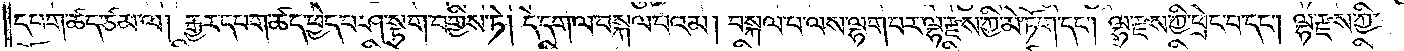དཔག་ཚད་ཙམ་ལ། རྒྱར་དཔག་ཚད་ཕྱེད་པ་ཤ་སྟག་བགྱིས་ཏེ། དེ་དག་ལ་བསྐལ་པའམ། བསྐལ་པ་ལས་ལྷག་པར་ལྷ་རྫས་ཀྱི་མེ་ཏོག་དང༌། ལྷ་རྫས་ཀྱི་འཕྲེང་བ་དང༌། ལྷ་རྫས་ཀྱི་
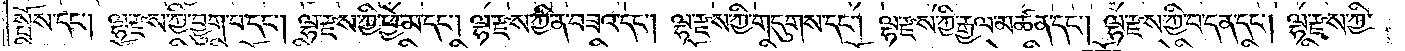སྤོས་དང༌། ལྷ་རྫས་ཀྱི་བྱུག་པ་དང༌། ལྷ་རྫས་ཀྱི་ཕྱེ་མ་དང༌། ལྷ་རྫས་ཀྱི་ན་བཟའ་དང༌། ལྷ་རྫས་ཀྱི་གདུགས་དང༌། ལྷ་རྫས་ཀྱི་རྒྱལ་མཚན་དང༌། ལྷ་རྫས་ཀྱི་བ་དན་དང༌། ལྷ་རྫས་ཀྱི་
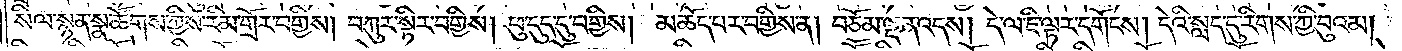སིལ་སྙན་སྣ་ཚོགས་ཀྱིས་རིམ་གྲོར་བགྱིས། བཀུར་སྟིར་བགྱིས། ཕུ་དུད་དུ་བགྱིས། མཆོད་པར་བགྱིས་ན། བཅོམ་ལྡན་འདས། དེ་ལ་ཇི་ལྟར་དགོངས། དེའི་སླད་དུ་རིགས་ཀྱི་བུའམ།
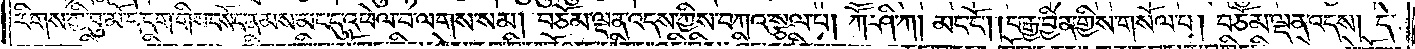རིགས་ཀྱི་བུ་མོ་དེ་དག་གི་བསོད་ནམས་མང་དུ་འཕེལ་བ་ལགས་སམ། བཅོམ་ལྡན་འདས་ཀྱིས་བཀའ་སྩལ་པ། ཀཽ་ཤི་ཀ། མང་ངོ༌། །བརྒྱ་བྱིན་གྱིས་གསོལ་པ། བཅོམ་ལྡན་འདས། དེ་
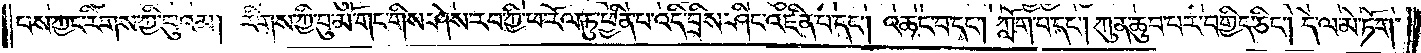བས་ཀྱང་རིགས་ཀྱི་བུའམ། རིགས་ཀྱི་བུ་མོ་གང་གིས་ཤེས་རབ་ཀྱི་ཕ་རོལ་ཏུ་ཕྱིན་པ་འདི་བྲིས་ཤིང་འཛིན་པ་དང༌། འཆང་བ་དང༌། ཀློག་པ་དང༌། ཀུན་ཆུབ་པར་བགྱིད་ཅིང༌། དེ་ལ་མེ་ཏོག་
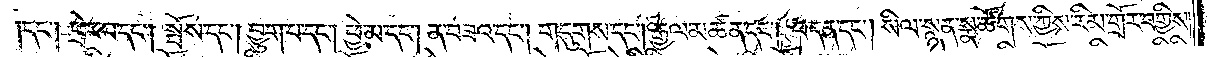དང༌། ཕྲེང་བ་དང༌། སྤོས་དང༌། བྱུག་པ་དང༌། ཕྱེ་མ་དང༌། ན་བཟའ་དང༌། གདུགས་དང༌། རྒྱལ་མཚན་དང༌། བ་དན་དང༌། སིལ་སྙན་སྣ་ཚོགས་ཀྱིས་རིམ་གྲོར་བགྱིས།
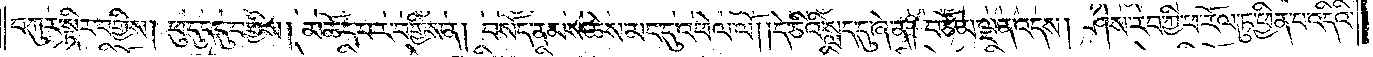བཀུར་སྟིར་བགྱིས། ཕུ་དུད་དུ་བགྱིས། མཆོད་པར་བགྱིད་ན། བསོད་ནམས་ཆེས་མང་དུ་འཕེལ་ལོ། །དེ་ཅིའི་སླད་དུ་ཞེ་ན། བཅོམ་ལྡན་འདས། ཤེས་རབ་ཀྱི་ཕ་རོལ་ཏུ་ཕྱིན་པ་འདིའི་
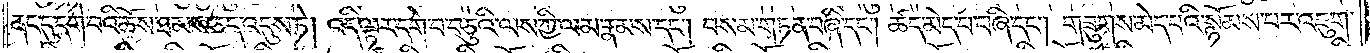ནང་དུ་དགེ་བའི་ཆོས་ཐམས་ཅད་འདུས་ཏེ། འདི་ལྟར་དགེ་བ་བཅུའི་ལས་ཀྱི་ལམ་རྣམས་དང༌། བསམ་གཏན་བཞི་དང༌། ཚད་མེད་པ་བཞི་དང༌། གཟུགས་མེད་པའི་སྙོམས་པར་འཇུག་
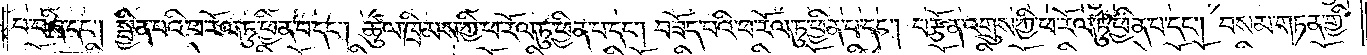པ་བཞི་དང༌། སྦྱིན་པའི་ཕ་རོལ་ཏུ་ཕྱིན་པ་དང༌། ཚུལ་ཁྲིམས་ཀྱི་ཕ་རོལ་ཏུ་ཕྱིན་པ་དང༌། བཟོད་པའི་ཕ་རོལ་ཏུ་ཕྱིན་པ་དང༌། བརྩོན་འགྲུས་ཀྱི་ཕ་རོལ་ཏུ་ཕྱིན་པ་དང༌། བསམ་གཏན་གྱི་
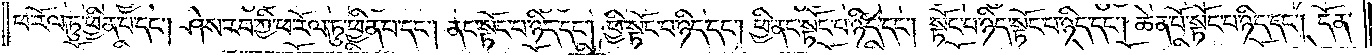ཕ་རོལ་ཏུ་ཕྱིན་པ་དང༌། ཤེས་རབ་ཀྱི་ཕ་རོལ་ཏུ་ཕྱིན་པ་དང༌། ནང་སྟོང་པ་ཉིད་དང༌། ཕྱི་སྟོང་པ་ཉིད་དང༌། ཕྱི་ནང་སྟོང་པ་ཉིད་དང༌། སྟོང་པ་ཉིད་སྟོང་པ་ཉིད་དང༌། ཆེན་པ་སྟོང་པ་ཉིད་དང༌། དོན་
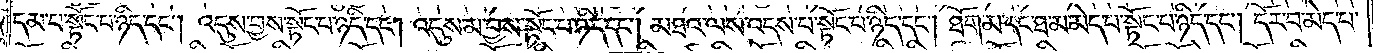དམ་པ་སྟོང་པ་ཉིད་དང༌། འདུས་བྱས་སྟོང་པ་ཉིད་དང༌། འདུས་མ་བྱས་སྟོང་པ་ཉིད་དང༌། མཐའ་ལས་འདས་པ་སྟོང་པ་ཉིད་དང༌། ཐོག་མ་དང་ཐ་མ་མེད་པ་སྟོང་པ་ཉིད་དང༌། དོར་བ་མེད་པ་
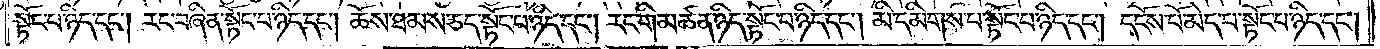སྟོང་པ་ཉིད་དང༌། རང་བཞིན་སྟོང་པ་ཉིད་དང༌། ཆོས་ཐམས་ཅད་སྟོང་པ་ཉིད་དང༌། རང་གི་མཚན་ཉིད་སྟོང་པ་ཉིད་དང༌། མི་དམིགས་པ་སྟོང་པ་ཉིད་དང༌། དངོས་པོ་མེད་པ་སྟོང་པ་ཉིད་དང༌།
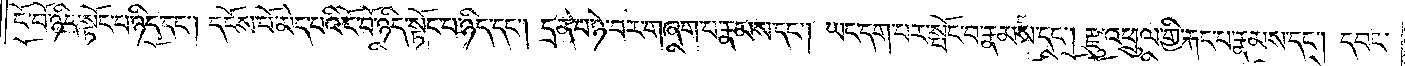ངོ་བོ་ཉིད་སྟོང་པ་ཉིད་དང༌། དངོས་པོ་མེད་པའི་ངོ་བོ་ཉིད་སྟོང་པ་ཉིད་དང༌། དྲན་པ་ཉེ་བར་བཞག་པ་རྣམས་དང༌། ཡང་དག་པར་སྤོང་བ་རྣམས་དང༌། རྫུ་འཕྲུལ་གྱི་རྐང་པ་རྣམས་དང༌། དབང་
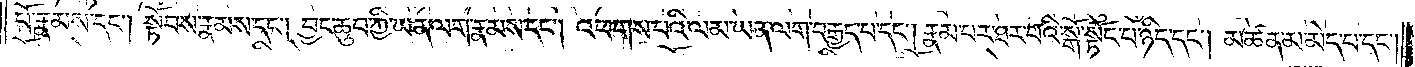པོ་རྣམས་དང༌། སྟོབས་རྣམས་དང༌། བྱང་ཆུབ་ཀྱི་ཡན་ལག་རྣམས་དང༌། འཕགས་པའི་ལམ་ཡན་ལག་བརྒྱད་པ་དང༌། རྣམ་པར་ཐར་པའི་སྒོ་སྟོང་པ་ཉིད་དང༌། མཚན་མ་མེད་པ་དང༌།
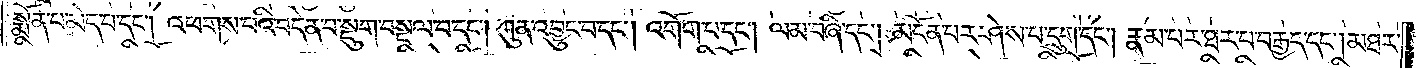སྨོན་པ་མེད་པ་དང༌། འཕགས་པའི་བདེན་པ་སྡུག་བསྔལ་བ་དང༌། ཀུན་འབྱུང་བ་དང༌། འགོག་པ་དང༌། ལམ་བཞི་དང༌། མངོན་པར་ཤེས་པ་དྲུག་དང༌། རྣམ་པར་ཐར་པ་བརྒྱད་དང༌། མཐར་
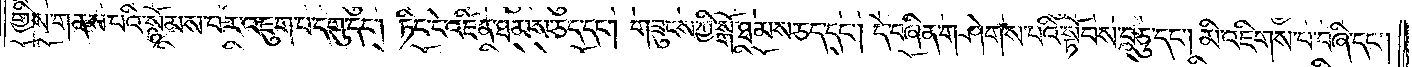གྱིས་གནས་པའི་སྙོམས་པར་འཇུག་པ་དགུ་དང༌། ཏིང་ངེ་འཛིན་ཐམས་ཅད་དང༌། གཟུངས་ཀྱི་སྒོ་ཐམས་ཅད་དང༌། དེ་བཞིན་གཤེགས་པའི་སྟོབས་བཅུ་དང༌། མི་འཇིགས་པ་བཞི་དང༌།
